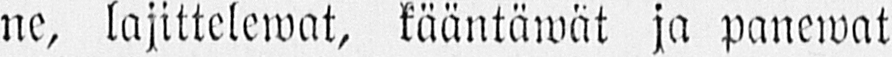ne, lajittelewat, kääntäwät ja panewat
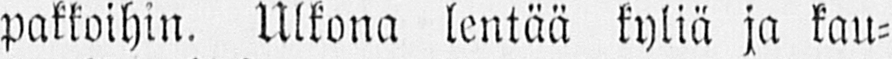pakkoihin. Ulkona lentää kyliä ja kau-
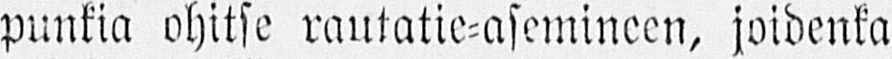punkia ohitse rautatie-asemineen, joidenka
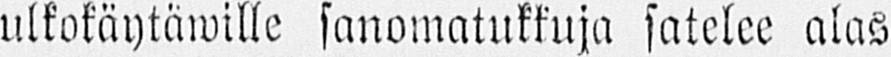ulkokäytäwille sanomatukkuja satelee alas
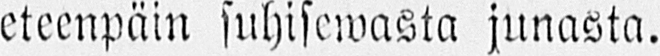eteenpäin suhisewasta junasta.
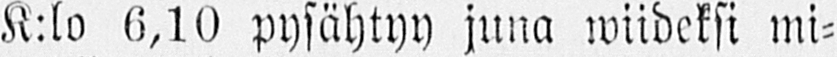K:lo 6,10 pysähtyy juna wiideksi mi-
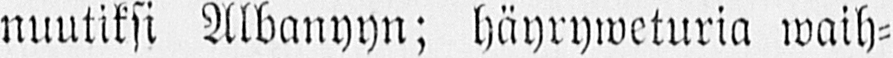nuutiksi Albanyyn; häyryweturia waih-
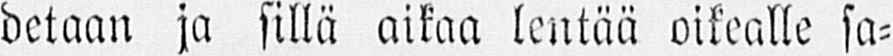detaan ja sillä aikaa lentää oikealle sa-
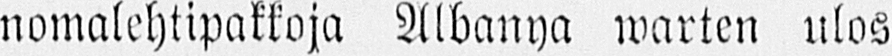nomalehtipakkoja Albanya warten ulos
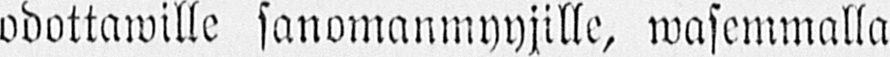odottawille sanomanmyyjille, wasenunalla
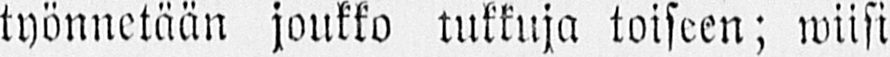työnnnetään joukko tukkuja toiseen; wiisi
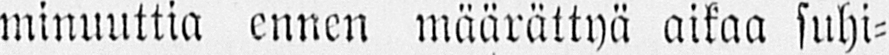minuuttia ennen määrättyä aikaa suhi-
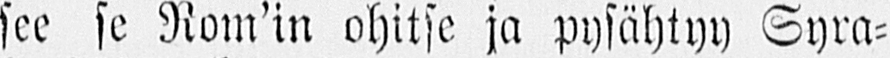see se Nom'in ohitse ja pysähtyy Syra-
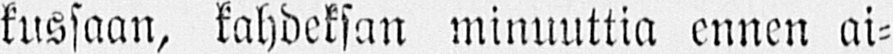kussaan, kahdeksan minuuttia ennen ai-
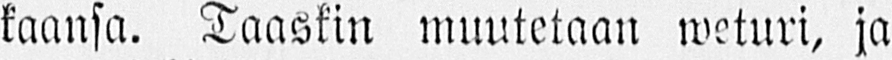kaansa. Taaskin muutetaan weturi, ja
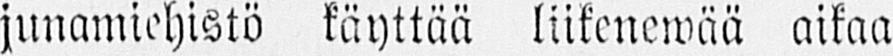junamiehistö käyttää liikenewää aikaa
